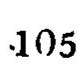105
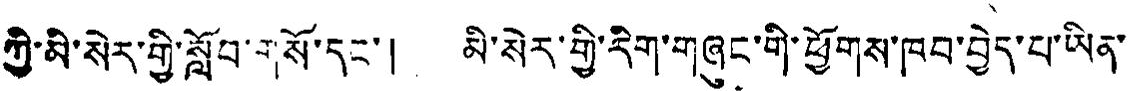ཀྱི་མི་སེར་གྱི་སློབ་གསོ་དང་། མི་སེར་གྱི་རིག་གཞུང་གི་ཕྱོགས་ཁབ་བྱེད་པ་ཡིན་
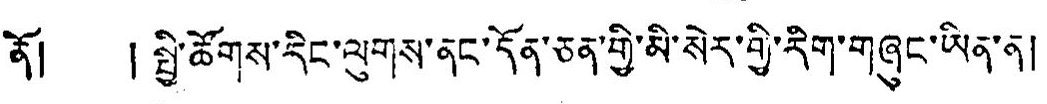ནོ། ། སྤྱི་ཚོགས་རིང་ལུགས་ནང་དོན་ཅན་གྱི་མི་སེར་གྱི་རིག་གཞུང་ཡིན་ན།
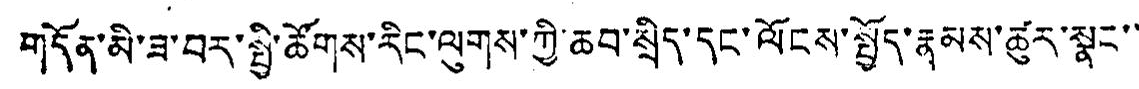གདོན་མི་ཟ་བར་སྤྱི་ཚོགས་རིང་ལུགས་ཀྱི་ཆབ་སྲིད་དང་ལོངས་སྤྱོད་རྣམས་ཚུར་སྣང་་
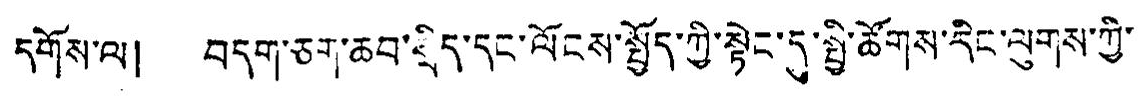དགོས་ལ། བདག་ཅག་ཆབ་སྲིད་དང་ལོངས་སྤྱོད་ཀྱི་སྟེང་དུ་སྤྱི་ཚོགས་རིང་ལུགས་ཀྱི་
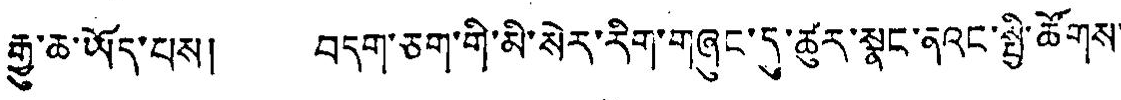རྒྱུ་ཆ་ཡོད་པས། བདག་ཅག་གི་མི་སེར་རིག་གཞུང་དུ་ཚུར་སྣང་ནའང་སྤྱི་ཚོགས་
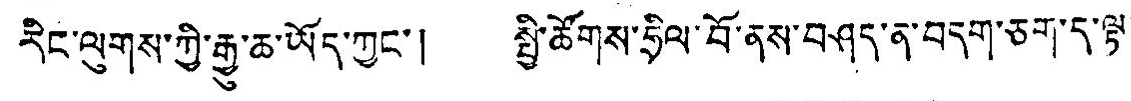རིང་ལུགས་ཀྱི་རྒྱུ་ཆ་ཡོད་ཀྱང་། སྤྱི་ཚོགས་ཧྲིལ་བོ་ནས་བཤད་ན་བདག་ཅག་ད་ལྟ་
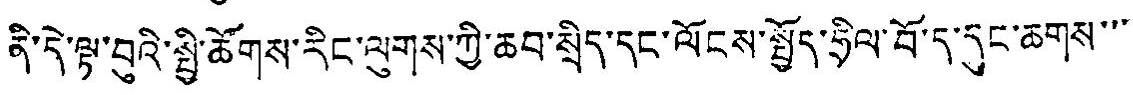ནི་དེ་ལྟ་བུའི་སྤྱི་ཚོགས་རིང་ལུགས་ཀྱི་ཆབ་སྲིད་དང་ལོངས་སྤྱོད་ཧྲིལ་བོ་ད་དུང་ཆགས་་་
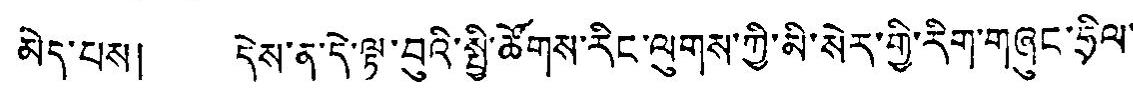མེད་པས། དེས་ན་དེ་ལྟ་བུའི་སྤྱི་ཚོགས་རིང་ལུགས་ཀྱི་མི་སེར་གྱི་རིག་གཞུང་ཧྲིལ་
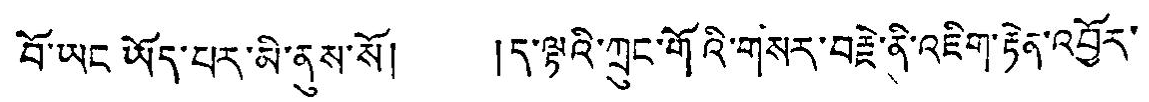བོ་ཡང ཡོད་པར་མི་ནུས་སོ། །ད་ལྟའི་ཀྲུང་གོའི་གསར་བརྗེ་ནི་འཇིག་རྟེན་འབྱོར་
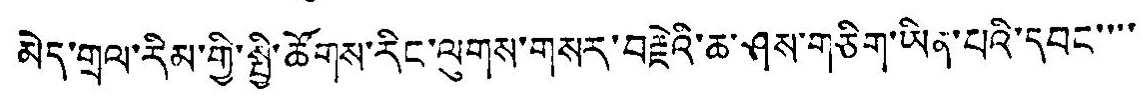མེད་གྲལ་རིམ་གྱི་སྤྱི་ཚོགས་རིང་ལུགས་གསར་བརྗེའི་ཆ་ཤས་གཅིག་ཡིན་པའི་དབང་་་་
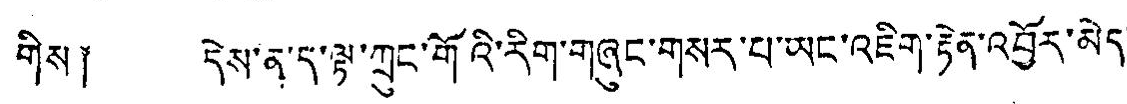གིས༐ དེས་ན་དུ་ལྟ་ཀྲུང་གོའི་རིག་གཞུང་གསར་པ་ཡང་འཇིག་རྟེན་འབྱོར་མེད་
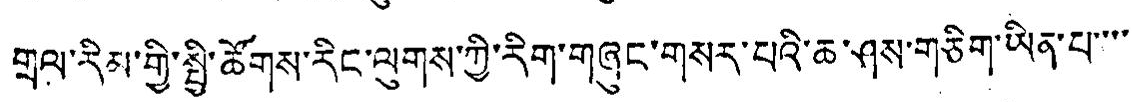གྲལ་རིམ་གྱི་སྤྱི་ཚོགས་རིང་ལུགས་ཀྱི་རིག་གཞུང་གསར་པའི་ཆ་ཤས་གཅིག་ཡིན་པ་་་་
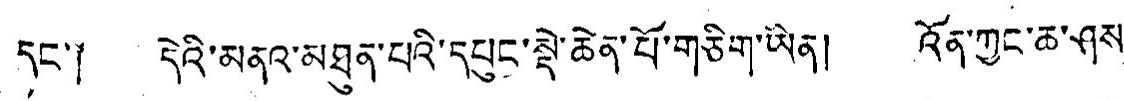དང་། དེའི་མནའ་མཐུན་པའི་དཔུང་སྡེ་ཆེན་པོ་གཅིག་ཡིན། འོན་ཀྱང་ཆ་ཤས་
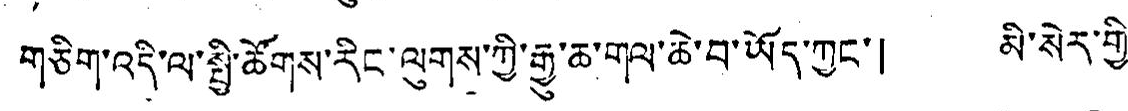གཅིག་འདི་ལ་སྤྱི་ཚོགས་རིང་ལུགས་ཀྱི་རྒྱུ་ཆ་གལ་ཆེ་བ་ཡོད་ཀྱང་། མི་སེར་གྱི་
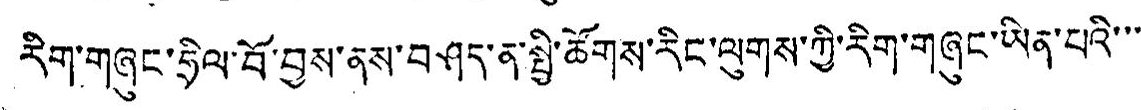རིག་གཞུང་ཧྲིལ་བོ་བྱས་ནས་བཤད་ན་སྤྱི་ཚོགས་རིང་ལུགས་ཀྱི་རིག་གཞུང་ཡིན་པའི་་་
